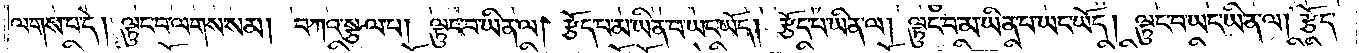ལགས་པ་དེ། ལྟུང་བ་ལགས་སམ། བཀའ་སྩལ་པ། ལྟུང་བ་ཡིན་ལ། རྩོད་པ་མ་ཡིན་པ་ཡང་ཡོད། རྩོད་པ་ཡིན་ལ། ལྟུང་བ་མ་ཡིན་པ་ཡང་ཡོད། ལྟུང་བ་ཡང་ཡིན་ལ། རྩོད་
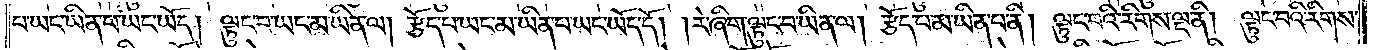པ་ཡང་ཡིན་པ་ཡང་ཡོད། ལྟུང་བ་ཡང་མ་ཡིན་ལ། རྩོད་པ་ཡང་མ་ཡིན་པ་ཡང་ཡོད་དོ། །རེ་ཞིག་ལྟུང་བ་ཡིན་ལ། རྩོད་པ་མ་ཡིན་པ་ནི། ལྟུང་བའི་རིགས་ལྔ་ནི། ལྟུང་བའི་རིགས་
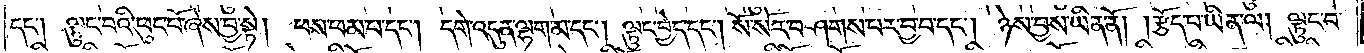དང༌། ལྟུང་བའི་ཕུང་པོ་ཞེས་བྱ་སྟེ། ཕས་ཕམ་པ་དང༌། དགེ་འདུན་ལྷག་མ་དང༌། ལྟུང་བྱེད་དང༌། སོ་སོར་བཤགས་པར་བྱ་བ་དང༌། ཉེས་བྱས་ཡིན་ནོ། །རྩོད་པ་ཡིན་ལ། ལྟུང་བ་
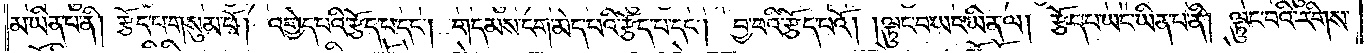མ་ཡིན་པ་ནི། རྩོད་པ་གསུམ་པོ། འགྱེད་པའི་རྩོད་པ་དང༌། གདམས་ངག་མེད་པའི་རྩོད་པ་དང༌། བྱ་བའི་རྩོད་པའོ། །ལྟུང་བ་ཡང་ཡིན་ལ། རྩོད་པ་ཡང་ཡིན་པ་ནི། ལྟུང་བའི་རིགས་
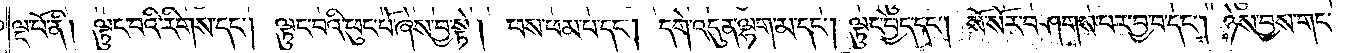ལྔ་པོ་ནི། ལྟུང་བའི་རིགས་དང༌། ལྟུང་བའི་ཕུང་པོ་ཞེས་བྱ་སྟེ། ཕས་ཕམ་པ་དང༌། དགེ་འདུན་ལྷག་མ་དང༌། ལྟུང་བྱེད་དང༌། སོ་སོར་བཤགས་པར་བྱ་བ་དང༌། ཉེས་བྱས་གང་
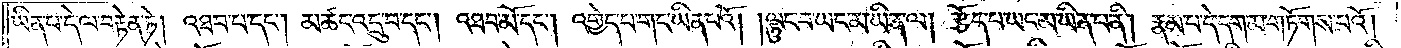ཡིན་པ་དེ་ལ་བརྟེན་ཏེ། འཐབ་པ་དང༌། མཚང་འདྲུ་བ་དང༌། འཐབ་མོ་དང༌། འགྱེད་པ་གང་ཡིན་པའོ། །ལྟུང་བ་ཡང་མ་ཡིན་ལ། རྩོད་པ་ཡང་མ་ཡིན་པ་ནི། རྣམ་པ་དེ་དག་མ་གཏོགས་པའོ།
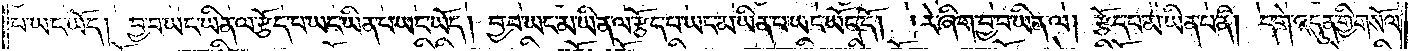པ་ཡང་ཡོད། བྱ་བ་ཡང་ཡིན་ལ་རྩོད་པ་ཡང་ཡིན་པ་ཡང་ཡོད། བྱ་བ་ཡང་མ་ཡིན་ལ་རྩོད་པ་ཡང་མ་ཡིན་པ་ཡང་ཡོད་དོ། །རེ་ཞིག་བྱ་བ་ཡིན་ལ། རྩོད་པ་མ་ཡིན་པ་ནི། དགེ་འདུན་གྱི་གསོལ་
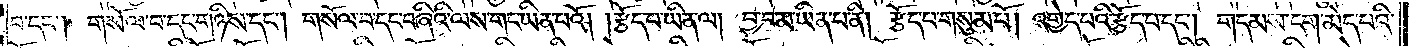བ་དང༌། གསོལ་བ་དང་གཉིས་དང༌། གསོལ་བ་དང་བཞིའི་ལས་གང་ཡིན་པའོ། །རྩོད་པ་ཡིན་ལ། བྱ་བ་མ་ཡིན་པ་ནི། རྩོད་པ་གསུམ་པོ། འགྱེད་པའི་རྩོད་པ་དང༌། གདམས་ངག་མེད་པའི་
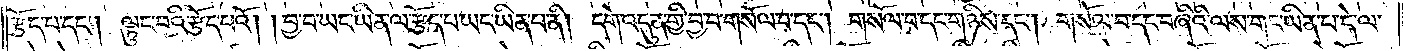རྩོད་པ་དང༌། ལྟུང་བའི་རྩོད་པའོ། །བྱ་བ་ཡང་ཡིན་ལ་རྩོད་པ་ཡང་ཡིན་པ་ནི། དགེ་འདུན་གྱི་བྱ་བ་གསོལ་བ་དང༌། གསོལ་བ་དང་གཉིས་དང༌། གསོལ་བ་དང་བཞིའི་ལས་གང་ཡིན་པ་དེ་ལ་
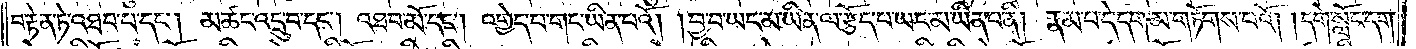བརྟེན་ཏེ་འཐབ་པ་དང༌། མཚང་འདྲུ་བ་དང༌། འཐབ་མོ་དང༌། འགྱེད་པ་གང་ཡིན་པའོ། །བྱ་བ་ཡང་མ་ཡིན་ལ་རྩོད་པ་ཡང་མ་ཡིན་པ་ནི། རྣམ་པ་དེ་དག་མ་གཏོགས་པའོ། །དགེ་སློང་དག་
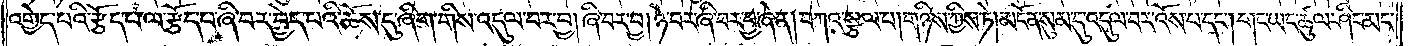འགྱེད་པའི་རྩོད་པ་ལ་རྩོད་པ་ཞི་བར་བྱེད་པའི་ཆོས་དུ་ཞིག་གིས་འདུལ་བར་བྱ། ཞི་བར་བྱ། ཉེ་བར་ཞི་བར་བྱ་ཞེ་ན། བཀའ་སྩལ་པ། གཉིས་ཀྱིས་ཏེ། མངོན་སུམ་དུ་འདུལ་བར་འོས་པ་དང༌། གང་ཡང་ཚུལ་ཤིང་མང་
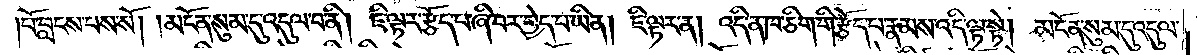པོ་བླངས་པས་སོ། །མངོན་སུམ་དུ་འདུལ་བ་ནི། ཇི་ལྟར་རྩོད་པ་ཞི་བར་བྱེད་པ་ཡིན། ཇི་ལྟར་ན། འདི་ན་ཁ་ཅིག་གི་རྩོད་པ་རྣམས་འདི་ལྟ་སྟེ། མངོན་སུམ་དུ་འདུལ་
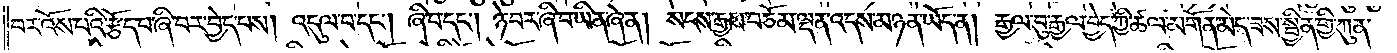བར་འོས་པའི་རྩོད་པ་ཞི་བར་བྱེད་པས། འདུལ་བ་དང༌། ཞི་བ་དང༌། ཉེ་བར་ཞི་བ་ཡིན་ཞེ་ན། སངས་རྒྱས་བཅོམ་ལྡན་འདས་མཉན་ཡོད་ན། རྒྱལ་བུ་རྒྱལ་བྱེད་ཀྱི་ཚལ་མགོན་མེད་ཟས་སྦྱིན་གྱི་ཀུན་
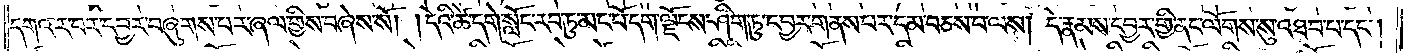དགའ་ར་བར་དབྱར་བཞུགས་པར་ཞལ་གྱིས་བཞེས་སོ། །དེའི་ཚེ་དགེ་སློང་རབ་ཏུ་མང་པོ་དག་ལྗོངས་ཤིག་ཏུ་དབྱར་གནས་པར་དམ་བཅས་པ་ལས། དེ་རྣམས་དབྱར་གྱི་ནང་ལོགས་སུ་འཐབ་པ་དང༌།
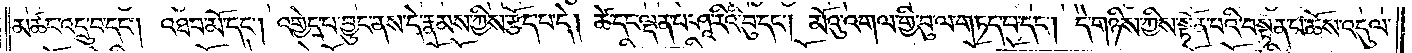མཚང་འདྲུ་བ་དང༌། འཐབ་མོ་དང༌། འགྱེད་པ་བྱུང་ནས་དེ་རྣམས་ཀྱིས་རྩོད་པ་དེ། ཚེ་དང་ལྡན་པ་ཤཱ་རིའི་བུ་དང༌། མོའུ་འགལ་གྱི་བུ་ལ་གཏད་པ་དང༌། དེ་གཉིས་ཀྱིས་སྟོན་པའི་བསྟན་པ་ཆོས་འདུལ་
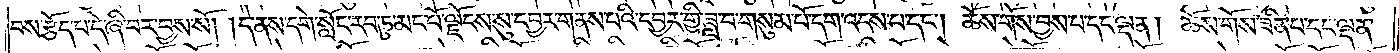བས་རྩོད་པ་དེ་ཞི་བར་བྱས་སོ། །དེ་ནས་དགེ་སློང་རབ་ཏུ་མང་པོ་ལྗོངས་སུ་དབྱར་གནས་པའི་དབྱར་གྱི་ཟླ་བ་གསུམ་པོ་དག་འདས་པ་དང༌། ཆོས་གོས་བྱས་པ་དང་ལྡན། ཆོས་གོས་ཟིན་པ་དང་ལྡན་
